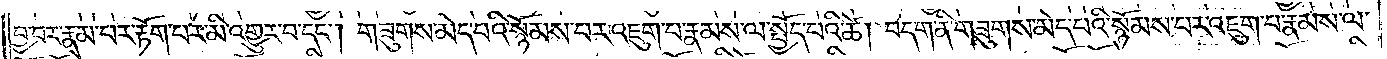བྱ་བར་རྣམ་པར་རྟོག་པར་མི་འགྱུར་བ་དང༌། གཟུགས་མེད་པའི་སྙོམས་པར་འཇུག་པ་རྣམས་ལ་སྤྱོད་པའི་ཚེ། བདག་ནི་གཟུགས་མེད་པའི་སྙོམས་པར་འཇུག་པ་རྣམས་ལ་
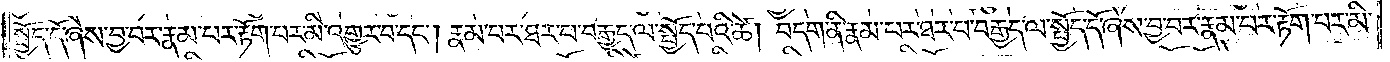སྤྱོད་དོ་ཞེས་བྱ་བར་རྣམ་པར་རྟོག་པར་མི་འགྱུར་བ་དང༌། རྣམ་པར་ཐར་པ་བརྒྱད་ལ་སྤྱོད་པའི་ཚེ། བདག་ནི་རྣམ་པར་ཐར་པ་བརྒྱད་ལ་སྤྱོད་དོ་ཞེས་བྱ་བར་རྣམ་པར་རྟོག་པར་མི་
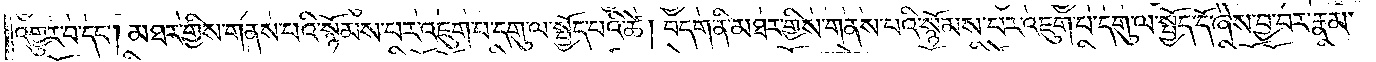འགྱུར་བ་དང༌། མཐར་གྱིས་གནས་པའི་སྙོམས་པར་འཇུག་པ་དགུ་ལ་སྤྱོད་པའི་ཚེ། བདག་ནི་མཐར་གྱིས་གནས་པའི་སྙོམས་པར་འཇུག་པ་དགུ་ལ་སྤྱོད་དོ་ཞེས་བྱ་བར་རྣམ་
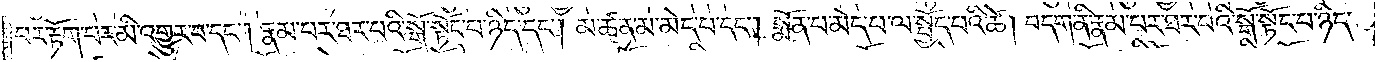པར་རྟོག་པར་མི་འགྱུར་བ་དང༌། རྣམ་པར་ཐར་པའི་སྒོ་སྟོང་པ་ཉིད་དང༌། མཚན་མ་མེད་པ་དང༌། སྨོན་པ་མེད་པ་ལ་སྤྱོད་པའི་ཚེ། བདག་ནི་རྣམ་པར་ཐར་པའི་སྒོ་སྟོང་པ་ཉིད་
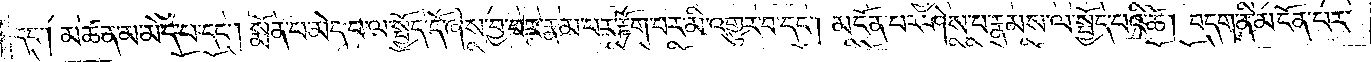དང༌། མཚན་མ་མེད་པ་དང༌། སྨོན་པ་མེད་པ་ལ་སྤྱོད་དོ་ཞེས་བྱ་བར་རྣམ་པར་རྟོག་པར་མི་འགྱུར་བ་དང༌། མངོན་པར་ཤེས་པ་རྣམས་ལ་སྤྱོད་པའི་ཚེ། བདག་ནི་མངོན་པར་
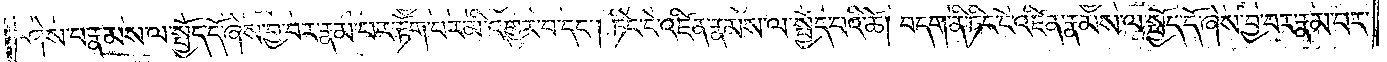ཤེས་པ་རྣམས་ལ་སྤྱོད་དོ་ཞེས་བྱ་བར་རྣམ་པར་རྟོག་པར་མི་འགྱུར་བ་དང༌། ཏིང་ངེ་འཛིན་རྣམས་ལ་སྤྱོད་པའི་ཚེ། བདག་ནི་ཏིང་ངེ་འཛིན་རྣམས་ལ་སྤྱོད་དོ་ཞེས་བྱ་བར་རྣམ་པར་
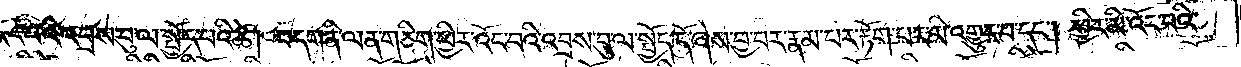ཕྱིར་འོང་བའི་འབྲས་བུ་ལ་སྤྱོད་པའི་ཚེ། བདག་ནི་ལན་གཅིག་ཕྱིར་འོང་བའི་འབྲས་བུ་ལ་སྤྱོད་དོ་ཞེས་བྱ་བར་རྣམ་པར་རྟོག་པར་མི་འགྱུར་བ་དང༌། ཕྱིར་མི་འོང་བའི་
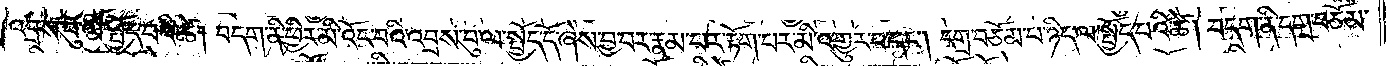འབྲས་བུ་ལ་སྤྱོད་པའི་ཚེ། བདག་ནི་ཕྱིར་མི་འོང་བའི་འབྲས་བུ་ལ་སྤྱོད་དོ་ཞེས་བྱ་བར་རྣམ་པར་རྟོག་པར་མི་འགྱུར་བ་དང༌། དགྲ་བཅོམ་པ་ཉིད་ལ་སྤྱོད་པའི་ཚེ། བདག་ནི་དགྲ་བཅོམ་
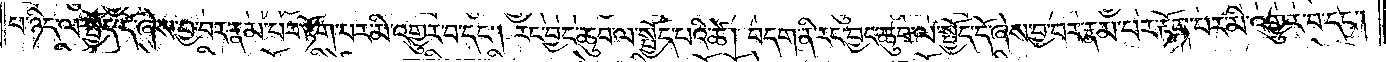པ་ཉིད་ལ་སྤྱོད་དོ་ཞེས་བྱ་བར་རྣམ་པར་རྟོག་པར་མི་འགྱུར་བ་དང༌། རང་བྱང་ཆུབ་ལ་སྤྱོད་པའི་ཚེ། བདག་ནི་རང་བྱང་ཆུབ་ལ་སྤྱོད་དོ་ཞེས་བྱ་བར་རྣམ་པར་རྟོག་པར་མི་འགྱུར་བ་དང༌།
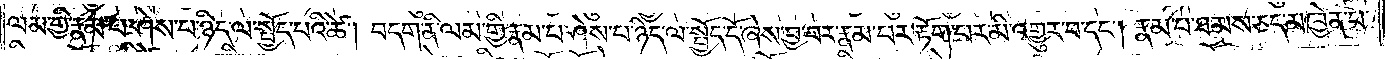ལམ་གྱི་རྣམ་པ་ཤེས་པ་ཉིད་ལ་སྤྱོད་པའི་ཚེ། བདག་ནི་ལམ་གྱི་རྣམ་པ་ཤེས་པ་ཉིད་ལ་སྤྱོད་དོ་ཞེས་བྱ་བར་རྣམ་པར་རྟོག་པར་མི་འགྱུར་བ་དང༌། རྣམ་པ་ཐམས་ཅད་མཁྱེན་པ་
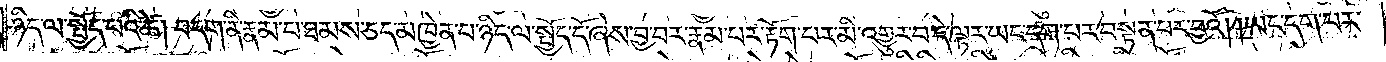ཉིད་ལ་སྤྱོད་པའི་ཚེ། བདག་ནི་རྣམ་པ་ཐམས་ཅད་མཁྱེན་པ་ཉིད་ལ་སྤྱོད་དོ་ཞེས་བྱ་བར་རྣམ་པར་རྟོག་པར་མི་འགྱུར་བ་དེ་ལྟར་ཡང་དག་པར་བསྟན་པར་བྱའོ། །ཡང་དག་པར་
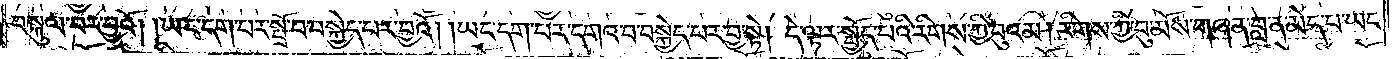བསྐུལ་བར་བྱའོ། །ཡང་དག་པར་སྤྲོ་བ་བསྐྱེད་པར་བྱའོ། །ཡང་དག་པར་དགའ་བ་བསྐྱེད་པར་བྱ་སྟེ། དེ་ལྟར་སྤྱོད་པའི་རིགས་ཀྱི་བུའམ། རིགས་ཀྱི་བུ་མོས་གཞན་བླ་ན་མེད་པ་ཡང་
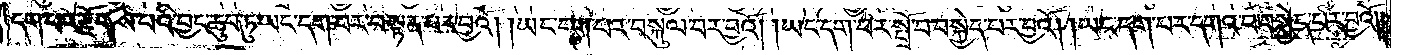དག་པར་རྫོགས་པའི་བྱང་ཆུབ་ཏུ་ཡང་དག་པར་བསྟན་པར་བྱའོ། །ཡང་དག་པར་བསྐུལ་བར་བྱའོ། །ཡང་དག་པར་སྤྲོ་བ་བསྐྱེད་པར་བྱའོ། །ཡང་དག་པར་དགའ་བ་བསྐྱེད་པར་བྱའོ། །
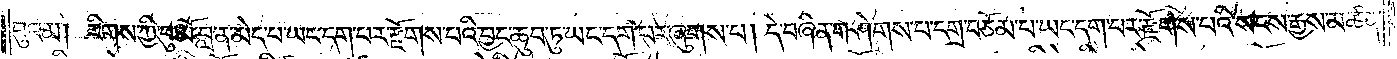བུའམ། རིགས་ཀྱི་བུ་མོ་བླ་ན་མེད་པ་ཡང་དག་པར་རྫོགས་པའི་བྱང་ཆུབ་ཏུ་ཡང་དག་པར་ཞུགས་པ། དེ་བཞིན་གཤེགས་པ་དགྲ་བཅོམ་པ་ཡང་དག་པར་རྫོགས་པའི་སངས་རྒྱས་མཚན་
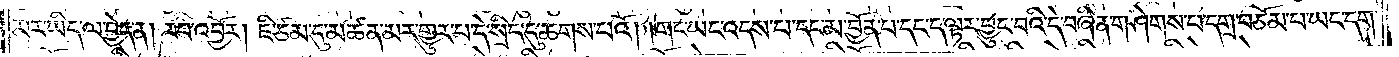མར་ཡིད་ལ་བྱེད་ན། རབ་འབྱོར། ཇི་ཙམ་དུ་མཚན་མར་གྱུར་པ་དེ་སྲིད་དུ་ཆགས་པའོ། །གང་ཡང་འདས་པ་དང་མ་བྱོན་པ་དང་ད་ལྟར་བྱུང་བའི་དེ་བཞིན་གཤེགས་པ་དགྲ་བཅོམ་པ་ཡང་དག་
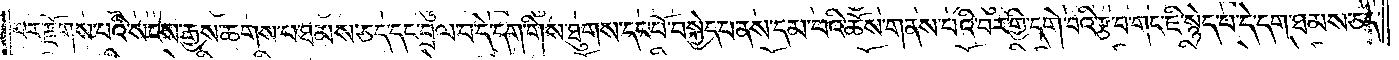པར་རྫོགས་པའི་སངས་རྒྱས་ཆགས་པ་ཐམས་ཅད་དང་བྲལ་བ་དེ་དག་གིས་ཐུགས་དང་པོ་བསྐྱེད་པ་ནས་དམ་པའི་ཆོས་གནས་པའི་བར་གྱི་དགེ་བའི་རྩ་བ་གང་ཇི་སྙེད་པ་དེ་དག་ཐམས་ཅད་
